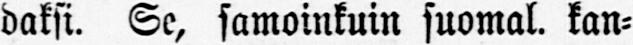daksi. Se, samoinkuin suomal. kan-
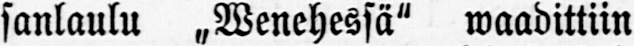sanlaulu „Wenehessä" waadittiin
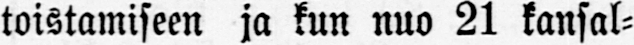toistamiseen ja kun nuo 21 kansal-
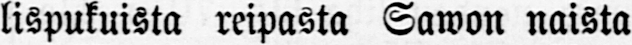lispukuista reipasta Sawon naista
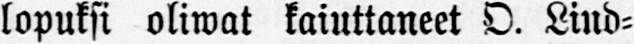lopuksi oliwat kaiuttaneet O. Lind-
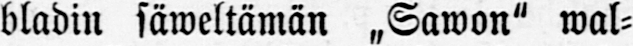bladin säweltämän „Sawon" wal-
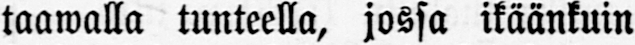taawalla tunteella, jossa ikäänkuin
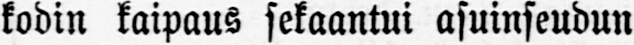kodin kaipaus sekaantui asuinseudun
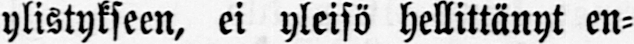ylistykseen, ei yleisö hellittänyt en-
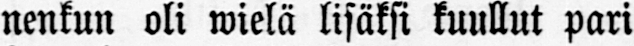nenkun oli wielä lisäksi kuullut pari
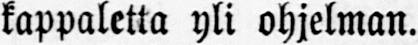kappaletta yli ohjelman.
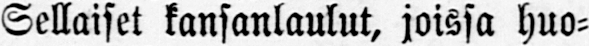Sellaiset kansanlaulut, joissa huo-
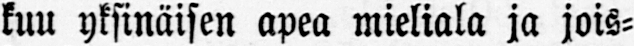kuu yksinäisen apea mieliala ja jois-
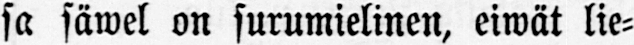sa säwel on surumielinen, eiwät lie-
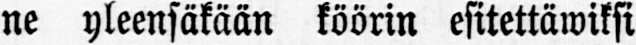ne yleensäkään köörin esitettäwiksi
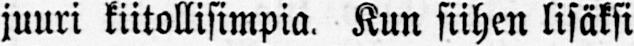juuri kiitollisimpia. Kun siihen lisäksi
